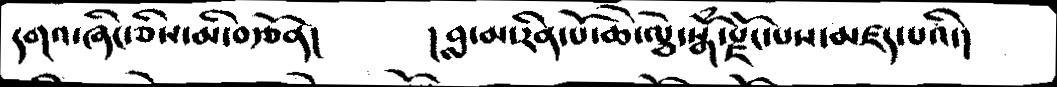དགའ་ཞིང་ཅིས་མི་བརྩོན།    །བླ་མ་རིན་པོ་ཆེ་ལྕེ་སྒོཾ་རྫོང་པས་མཛད་པའི་།
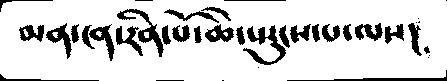མན་ངན་རིན་པོ་ཆེ་སྤུངས་པ་ལས།
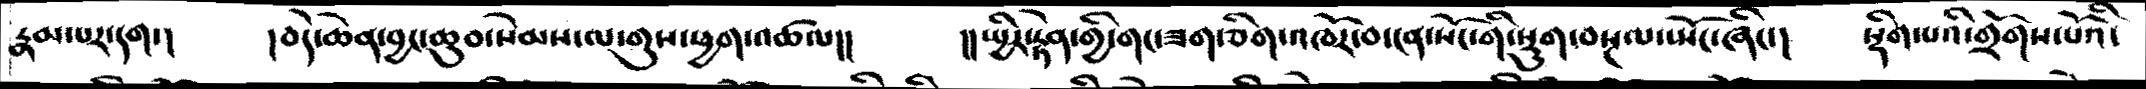རྣམ་པར་དག་།   །བདེ་ཆེན་བྱང་ཆུབ་སེམས་ལ་གུས་ཕྱག་འཚལ།།     །།སྤྱིར་རྟེན་གྱི་གང་ཟག་ཅིག་འཁོར་བ་ངན་སོང་གི་སྡུག་བསྔལ་སྤོང་ཞིང་།  སྡིག་པའི་གྲོགས་པོའི་
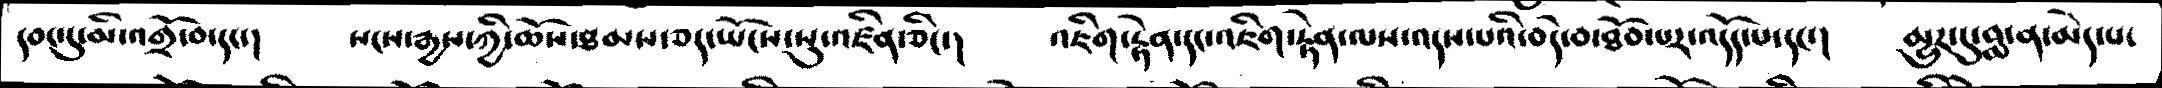དབང་དུ་མི་འགྲོ་བ་དང་།    སངས་རྒྱས་ཀྱི་ཆོས་ཐམས་ཅད་ཡོངས་སུ་འཛིན་ཅིང་།   འཇིག་རྟེན་དང་འཇིག་རྟེན་ལས་འདས་པའི་བདེ་བ་ཐོབ་པར་འདོད་པ་དང་།   མྱུར་དུ་བླ་ན་མེད་པ་
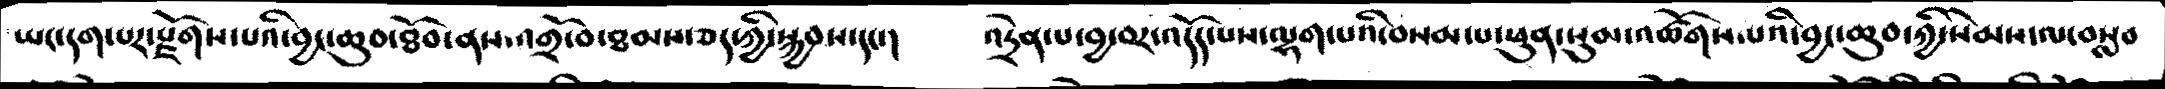ཡང་དག་པར་རྫོགས་པའི་བྱང་ཆུབ་ཐོབ་ནས་འགྲོ་བ་ཐམས་ཅད་ཀྱི་སྐྱབས་དང་།   འདྲེན་པ་བྱ་བར་འདོད་པས་ལྷག་པའི་བསམ་པ་ཕུན་སུམ་འཚོགས་པའི་བྱང་ཆུབ་ཀྱི་སེམས་ལ་བསླབ
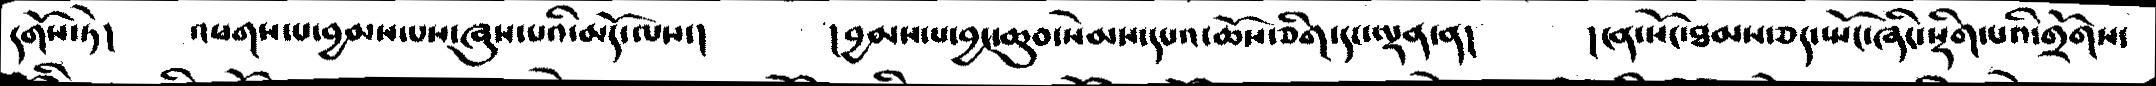དགོས་ཏེ།    འཕགས་པ་བྱམས་པས་ཞུས་པའི་མདོ་ལས་།    །བྱམས་པ་བྱང་ཆུབ་སེམས་དཔའ་ཆོས་ཅིག་དང་ལྡན་ན།   །ངན་སོང་ཐམས་ཅད་སྤོང་ཞིང་སྡིག་པའི་གྲོགས་
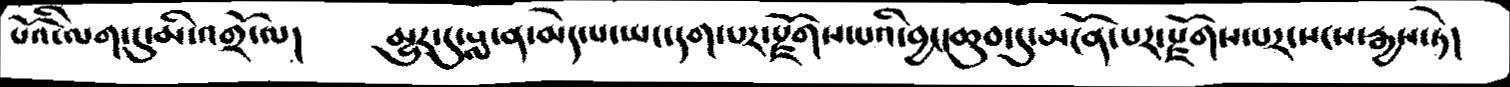པོའི་ལག་དུ་མི་འགྲོ་ལ།   མྱུར་དུ་བླ་ན་མེད་པ་ཡང་དག་པར་རྫོགས་པའི་བྱང་ཆུབ་དུ་མངོན་པར་རྫོགས་པར་སངས་རྒྱས་ཏེ།
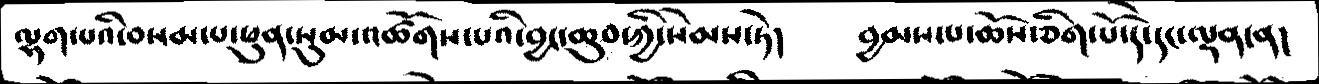ལྷག་པའི་བསམ་པ་ཕུན་སུམ་འཚོགས་པའི་བྱང་ཆུབ་ཀྱི་སེམས་ཏེ།   བྱམས་པ་ཆོས་ཅིག་པོ་དེ་དང་ལྡན་ན།
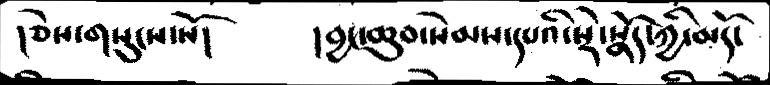།ཅེས་གསུངས་སོ།     །བྱང་ཆུབ་སེམས་དཔའི་སྡེ་སྣོད་ཀྱི་མདོ་
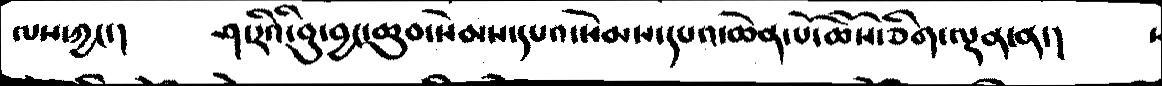ལས་ཀྱང་།   ཤ་རིའི་བུ་བྱང་ཆུབ་སེམས་དཔའ་སེམས་དཔའ་ཆེན་པོ་ཆོས་ཅིག་ལྡན་ན་།
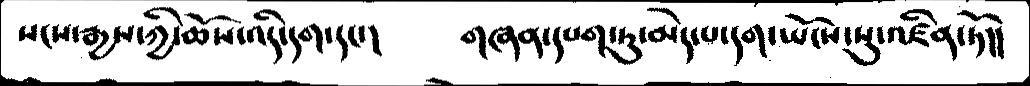སངས་རྒྱས་ཀྱི་ཆོས་འདི་དག་དང་།   གཞན་དཔག་ཏུ་མེད་པ་དག་ཡོངས་སུ་འཛིན་ཏོ།།
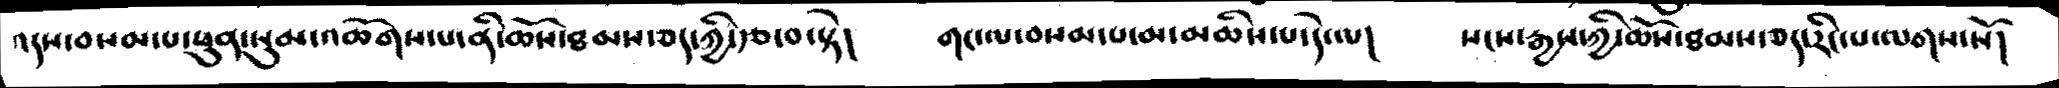འདས་བསམ་པ་ཕུན་སུམ་འཚོགས་པ་ནི་ཆོས་ཐམས་ཅད་ཀྱི་རྩ་བ་སྟེ།   གང་ལ་བསམ་པ་མ་མཆིས་པ་དེ་ལ།   སངས་རྒྱས་ཀྱི་ཆོས་ཐམས་ཅད་རིང་པ་ལགས་སོ།
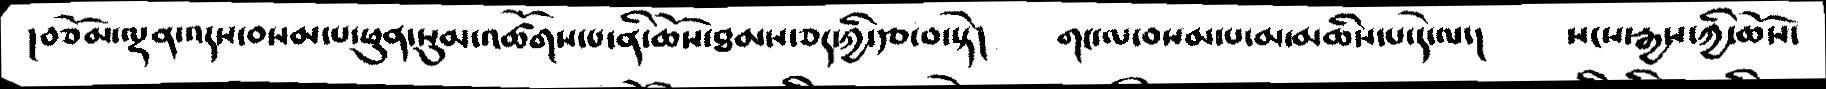།བཅོམ་ལྡན་འདས་བསམ་པ་ཕུན་སུམ་འཚོགས་པ་ནི་ཆོས་ཐམས་ཅད་ཀྱི་རྩ་བ་སྟེ།    གང་ལ་བསམ་པ་མ་མཆིས་པ་དེ་ལ་།    སངས་རྒྱས་ཀྱི་ཆོས་
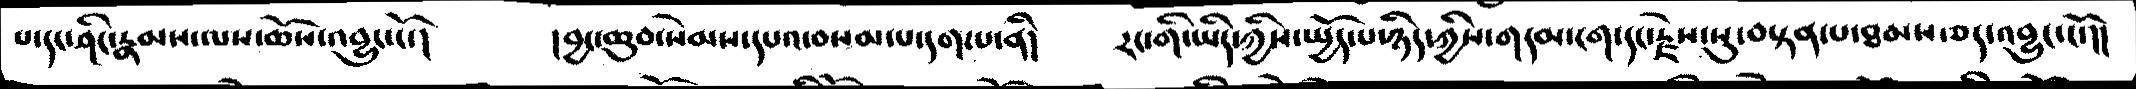པ་དང་ཤིང་རྣམས་ལས་ཆོས་འབྱུང་ངོ་།      །བྱང་ཆུབ་སེམས་དཔའ་བསམ་པ་དག་པ་ནི།    རང་གི་ཡིད་ཀྱིས་སྤྱོད་པ་ཉིད་ཀྱིས་གདམ་ངག་དང་རྗེས་སུ་བསྟན་པ་ཐམས་ཅད་འབྱུང་ངོ་།།
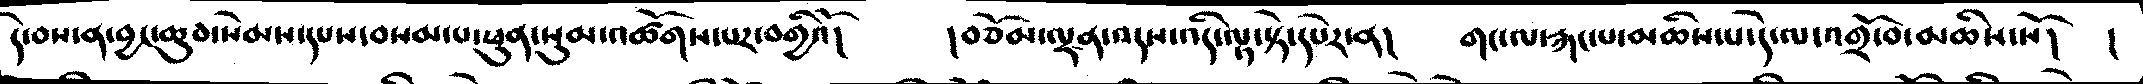དེ་བས་ན་བྱང་ཆུབ་སེམས་དཔས་བསམ་པ་ཕུན་སུམ་འཚོགས་པར་བགྱིའོ།   །བཅོམ་ལྡན་འདས་འདི་ལྟ་སྟེ་དཔེར་ན།   གང་ལ་རྐང་པ་མཆིས་པ་དེ་ལ་འགྲོ་བ་མཆིས་སོ།  །
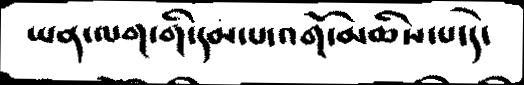ཡན་ལག་གི་དམ་པ་འགོ་མཆིས་པ་དེ་
